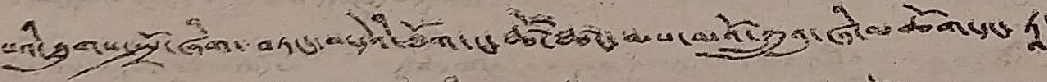པའི་ཐུགས་སྤྲོ་ཞིག་བཏང་བ་དེའི་ཐོག་ང་ཚོ་ཚང་མས་མའོ་ཀྲུའུ་ཞི་མཆོག་ཕདང་ ཏཱ་
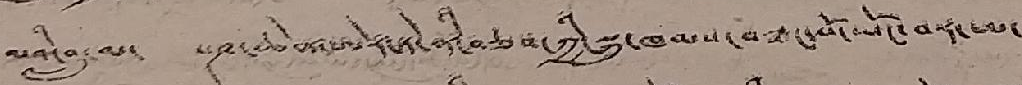ལའི་བླ་མ་ པཎ་ཆེན་ཨེར་ཏེ་ནི་བཅས་ཀྱི་སྐུ་ཁམས་བཟང་པོ་ཡོང་བར་མ་་་
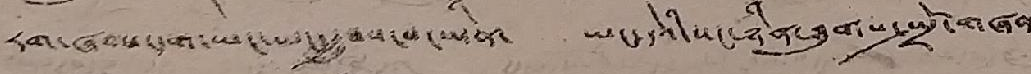རག་ཞབས་དག་ཡང་མ་སྐྱབས་པ་ཡིན་ ཡང་དེའི་སང་ཉིན་ཐུགས་སྤྲོ་གཞན་
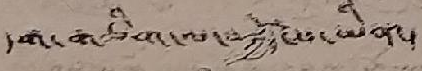དག་གཅིག་ལ་བསྐྱོད་པ་ཡིན་།
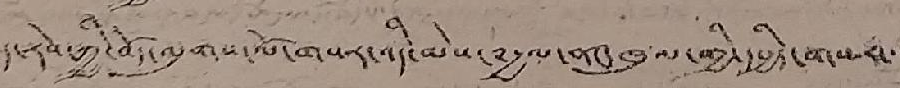ད་རེས་ཀྱི་བོད་ལུགས་ལོ་གསར་འདི་མེས་༸རྒྱལ་ནང་ཁུལ་གྱི་དཔྱིད་གསར་་་
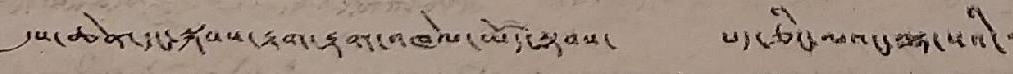དུས་ཆེན་དང་སྐབས་རྟག་རྟག་འཁེལ་ཡོད་སྟབས་ པད་ཅིང་ལའང་ལྷ་སའི་་
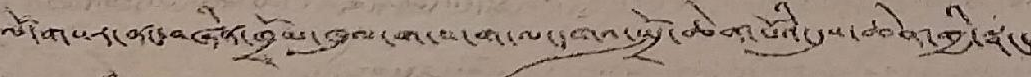ལོ་གསར་ནང་བཞིན་ཁྲོམ་ཁུལ་ག་ས་ག་ལ་དགའ་སྤྲོ་ཆེན་པོའི་དུས་ཆེན་གྱི་སྣང་
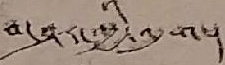བ་ཤར་གྱི་འདུག་།
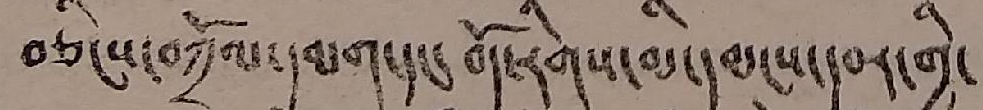བཅིངས་བཀྲོལ་དམག་དང་བོད་རིགས་མི་དམངས་དབར་གྱི་
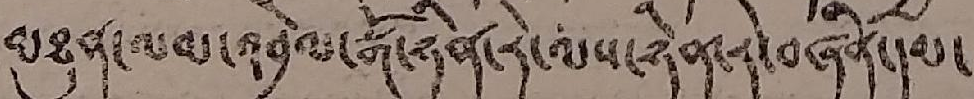མཐུན་ལམ་འབྲེལ་སྒོ་ཉིན་རེ་ལས་ཉིན་རེ་བཞིན་དམ་
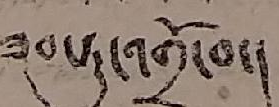ཟབ་ཏུ་འགྲོ་བ་།
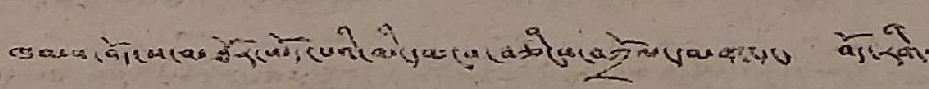ཁམས་བོད་ས་མཐོར་ཡོད་པའི་མི་དམངས་བཅིངས་བཀྲོལ་དམག་དང་ བོད་རིགས་
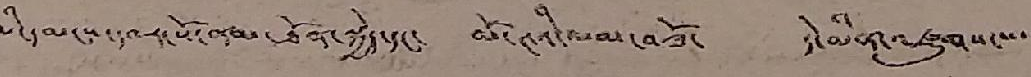མི་དམངས་དབར་སོ་ནམ་ཐོན་སྐྱེད་དང་ མོ་ཊའི་ལམ་བཟོ་ དེ་མིན་འཛུགས་་་་་
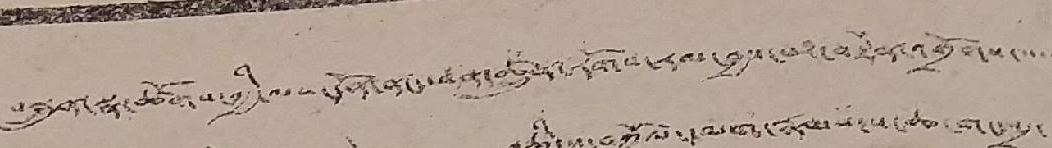བསྐྲུན་སྣ་ཚོགས་ཀྱི་ལས་དོན་ནང་ཕན་ཚུན་རོགས་རམ་བྱས་པ་བརྟེན་འགྲོགས་་་་་
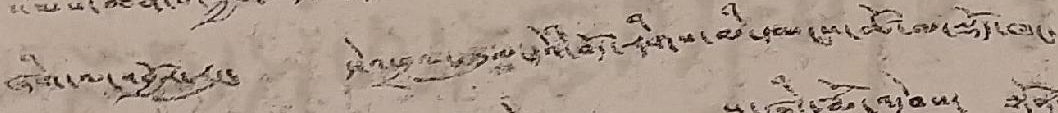ཞིག་ལ་འབྱོར་རུང་ དེ་འཕྲལ་མགུལ་དེའི་བོད་རིགས་མི་དམངས་ཚོ་ལ་སྡོད་ཁང་
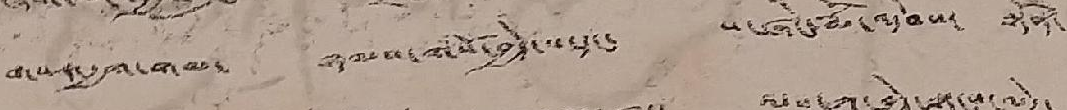གསར་རྒྱག་གམ་ ནཡམས་གསོ་བྱེད་པ་དང་ ས་ཞིང་རྨོ་འདེབས་ སྟོན་
